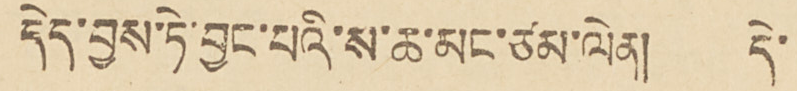དེད་བྱས་ཏེ་བྱང་པའི་ས་ཆ་མང་ཙམ་ལེན། དེ་
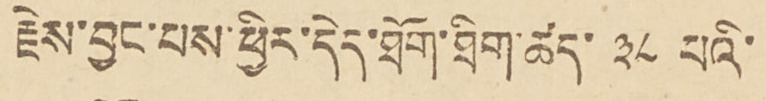རྗེས་བྱང་པས་ཕྱིར་དེད་ཐོག་ཐིག་ཚད་༣༨་པའི་
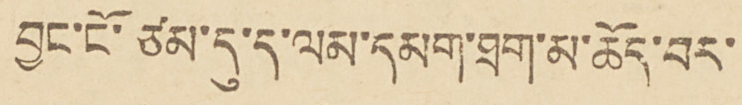བྱང་ངོ་ཙམ་དུ་ད་ལམ་དམག་ཐག་མ་ཆོད་བར་
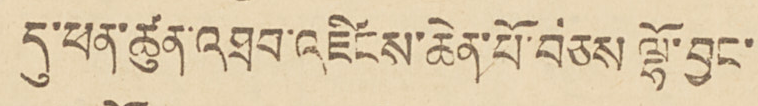དུ་ཕན་ཚུན་འཐབ་འཛིངས་ཆེན་པོ་བཅས ལྷོ་བྱང་
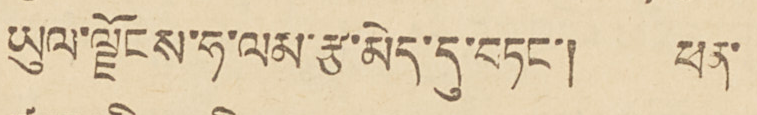ཡུལ་ལྗོངས་ཧ་ལམ་རྩ་མེད་དུ་བཏང་། ཕན་
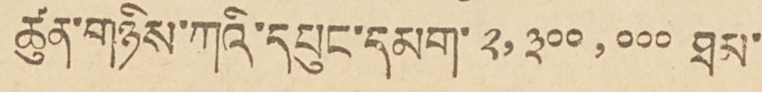ཚུན་གཉིས་ཀའི་དཔུང་དམག་ ༢,༣༠,༠༠༠ ལྷག་ཙམ་དང་།
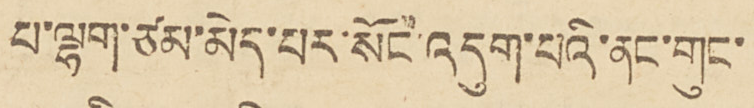པ་ལྷག་ཙམ་མེད་པར་སོང་འདུག་པའི་ནང་གུང་
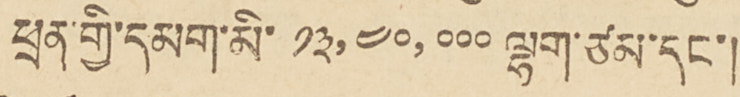ཕྲན་གྱི་དམག་མི་ ༡༣,༤༠,༠༠༠ ལྷག་ཙམ་དང་།
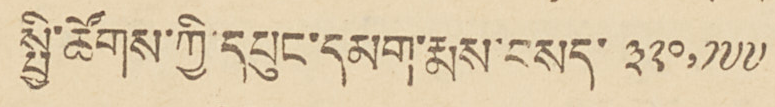སྤྱི་ཚོགས་ཀྱི་དཔུང་དམག་རྨས་བསད་༣༢༠,༡༧༧
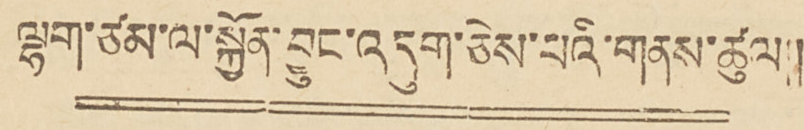ལྷག་ཙམ་ལ་སྐྱོན་བྱུང་འདུག་ཅེས་པའི་གནས་ཚུལ།།
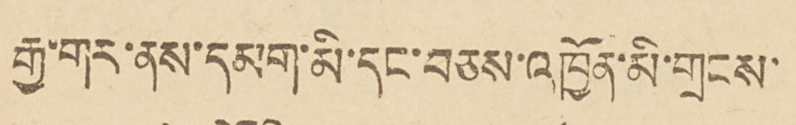རྒྱ་གར་ནས་དམག་མི་དང་བཅས་འཁྱོན་མི་གྲངས་
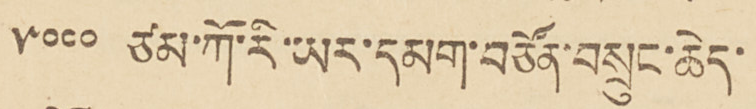༥༠༠༠ ཙམ་ཀོ་རི་ཡར་དམག་བཙོན་བསྲུང་ཆེད་
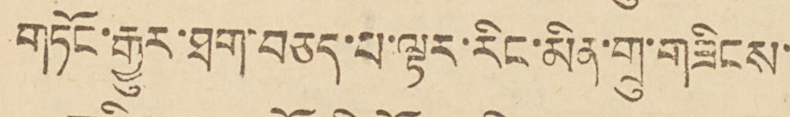གཏོང་རྒྱུར་ཐག་བཅད་པ་ལྟར་རིང་མིན་གྲུ་གཟིངས་
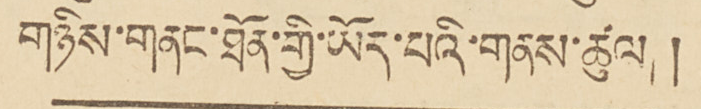གཉིས་གནང་ཐོན་གྱི་ཡོད་པའི་གནས་ཚུལ།།
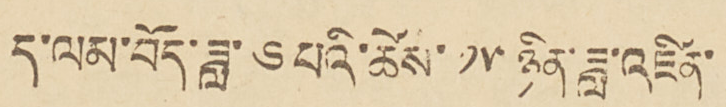ད་ལམ་བོད་ཟླ་༦པའི་ཚེས་༡༥ཉིན་ཟླ་འཛིན་
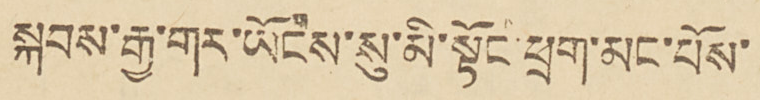སྐབས་རྒྱ་གར་ཡོངས་སུ་མི་སྟོང་ཕྲག་མང་པོས་
